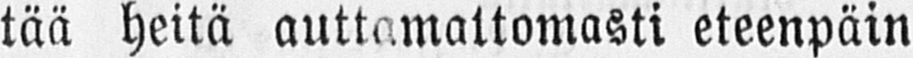tää heitä auttamattomasti eteenpäin
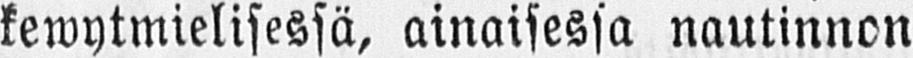kewytmielisessä, ainaisessa nautinnon
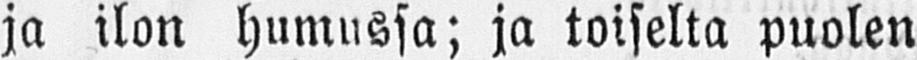ja ilon humussa; ja toiselta puolen
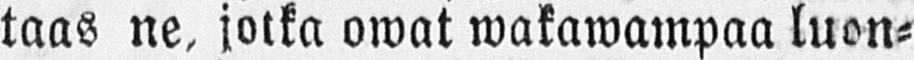taas ne, jotka owat wakawampaa luon-
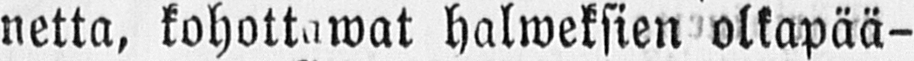netta, kohottawat halweksien olkapää-
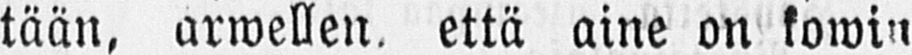tään, arwellen, että aine on kowin
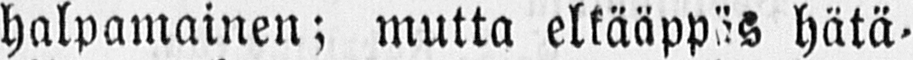halpamainen; mutta elkääppäs hätä-
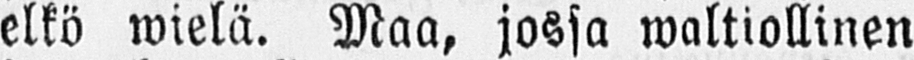elkö wielä. Maa, jossa waltiollinen
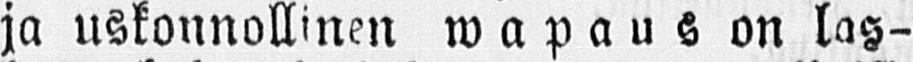ja uskonnollinen wapaus on las-
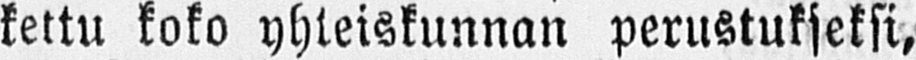kettu koko yhteiskunnan perustukseksi,
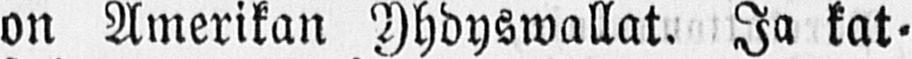on Amerikan Yhdyswallat, Ja kat-
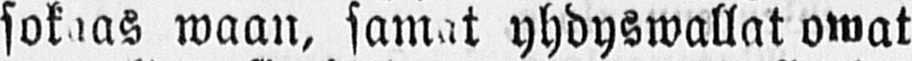sokaas waan, samat yhdyswallat owat
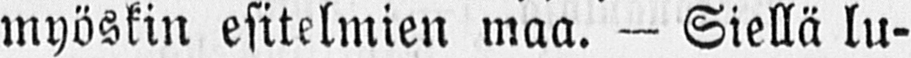myöskin esitelmien maa. — Siellä lu-
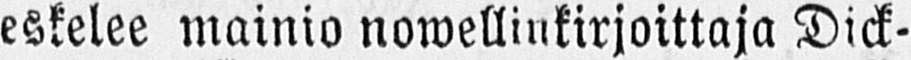eskelee mainio nowellinkirjoittaja Dick-
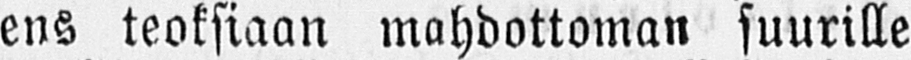ens teoksiaan mahdottoman suurille
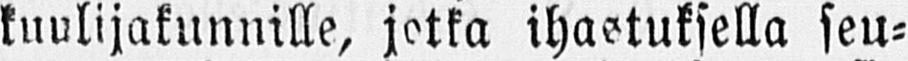kuulijakunnille, jotka ihastuksella seu-
